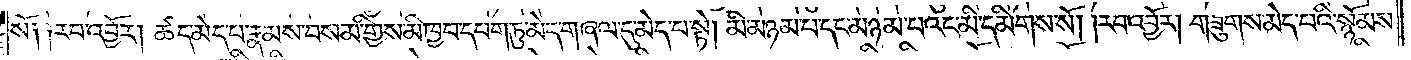སོ། །རབ་འབྱོར། ཚད་མེད་པ་རྣམས་བསམ་གྱིས་མི་ཁྱབ་དཔག་ཏུ་མེད་གཞལ་དུ་མེད་པ་སྟེ། མི་མཉམ་པ་དང་མཉམ་པའང་མི་དམིགས་སོ། །རབ་འབྱོར། གཟུགས་མེད་པའི་སྙོམས་
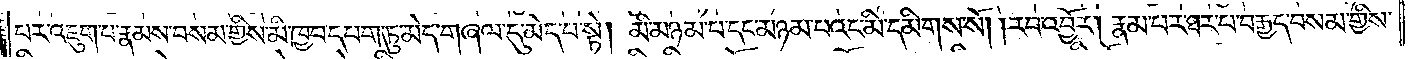པར་འཇུག་པ་རྣམས་བསམ་གྱིས་མི་ཁྱབ་དཔག་ཏུ་མེད་གཞལ་དུ་མེད་པ་སྟེ། མི་མཉམ་པ་དང་མཉམ་པའང་མི་དམིགས་སོ། །རབ་འབྱོར། རྣམ་པར་ཐར་པ་བརྒྱད་བསམ་གྱིས་
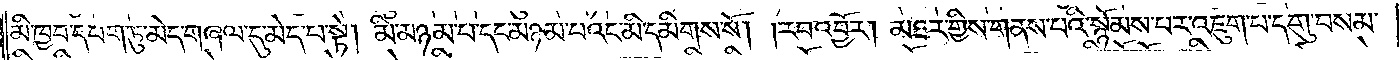མི་ཁྱབ་དཔག་ཏུ་མེད་གཞལ་དུ་མེད་པ་སྟེ། མི་མཉམ་པ་དང་མཉམ་པའང་མི་དམིགས་སོ། །རབ་འབྱོར། མཐར་གྱིས་གནས་པའི་སྙོམས་པར་འཇུག་པ་དགུ་བསམ་
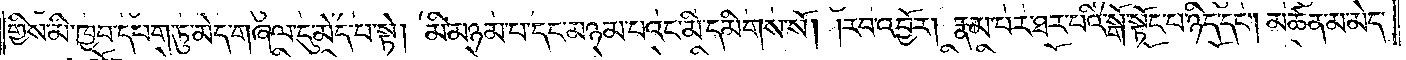གྱིས་མི་ཁྱབ་དཔག་ཏུ་མེད་གཞལ་དུ་མེད་པ་སྟེ། མི་མཉམ་པ་དང་མཉམ་པའང་མི་དམིགས་སོ། །རབ་འབྱོར། རྣམ་པར་ཐར་པའི་སྒོ་སྟོང་པ་ཉིད་དང༌། མཚན་མ་མེད་
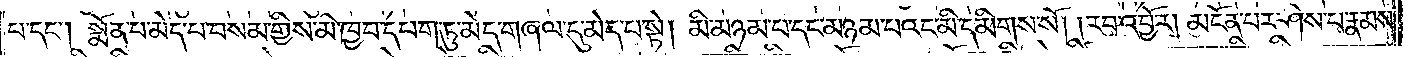པ་དང༌། སྨོན་པ་མེད་པ་བསམ་གྱིས་མི་ཁྱབ་དཔག་ཏུ་མེད་གཞལ་དུ་མེད་པ་སྟེ། མི་མཉམ་པ་དང་མཉམ་པའང་མི་དམིགས་སོ། །རབ་འབྱོར། མངོན་པར་ཤེས་པ་རྣམས་
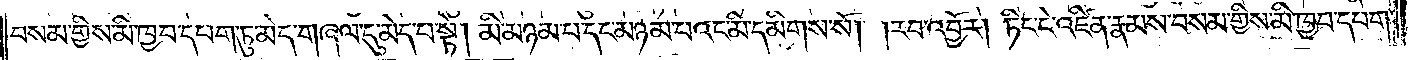བསམ་གྱིས་མི་ཁྱབ་དཔག་ཏུ་མེད་གཞལ་དུ་མེད་པ་སྟེ། མི་མཉམ་པ་དང་མཉམ་པའང་མི་དམིགས་སོ། །རབ་འབྱོར། ཏིང་ངེ་འཛིན་རྣམས་བསམ་གྱིས་མི་ཁྱབ་དཔག་
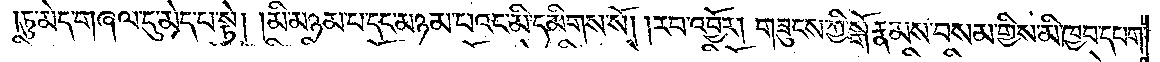ཏུ་མེད་གཞལ་དུ་མེད་པ་སྟེ། མི་མཉམ་པ་དང་མཉམ་པའང་མི་དམིགས་སོ། རབ་འབྱོར། གཟུངས་ཀྱི་སྒོ་རྣམས་བསམ་གྱིས་མི་ཁྱབ་དཔག་
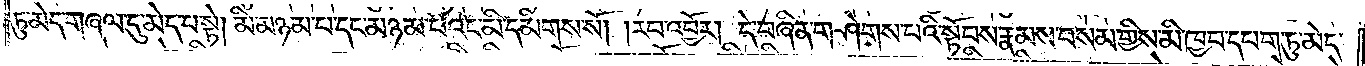ཏུ་མེད་གཞལ་དུ་མེད་པ་སྟེ། མི་མཉམ་པ་དང་མཉམ་པའང་མི་དམིགས་སོ། །རབ་འབྱོར། དེ་བཞིན་གཤེགས་པའི་སྟོབས་རྣམས་བསམ་གྱིས་མི་ཁྱབ་དཔག་ཏུ་མེད་
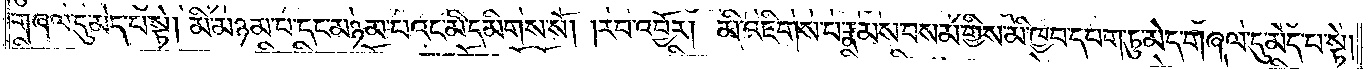གཞལ་དུ་མེད་པ་སྟེ། མི་མཉམ་པ་དང་མཉམ་པའང་མི་དམིགས་སོ། །རབ་འབྱོར། མི་འཇིགས་པ་རྣམས་བསམ་གྱིས་མི་ཁྱབ་དཔག་ཏུ་མེད་གཞལ་དུ་མེད་པ་སྟེ།
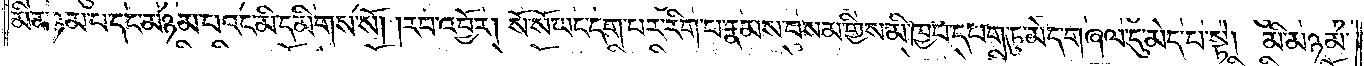མི་མཉམ་པ་དང་མཉམ་པའང་མི་དམིགས་སོ། །རབ་འབྱོར། སོ་སོ་ཡང་དག་པར་རིག་པ་རྣམས་བསམ་གྱིས་མི་ཁྱབ་དཔག་ཏུ་མེད་གཞལ་དུ་མེད་པ་སྟེ། མི་མཉམ་
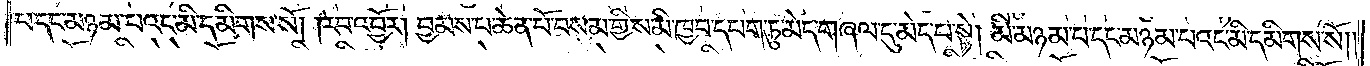པ་དང་མཉམ་པའང་མི་དམིགས་སོ། །རབ་འབྱོར། བྱམས་པ་ཆེན་པོ་བསམ་གྱིས་མི་ཁྱབ་དཔག་ཏུ་མེད་གཞལ་དུ་མེད་པ་སྟེ། མི་མཉམ་པ་དང་མཉམ་པའང་མི་དམིགས་སོ། །
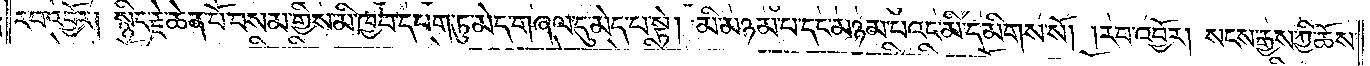རབ་འབྱོར། སྙིང་རྗེ་ཆེན་པོ་བསམ་གྱིས་མི་ཁྱབ་དཔག་ཏུ་མེད་གཞལ་དུ་མེད་པ་སྟེ། མི་མཉམ་པ་དང་མཉམ་པའང་མི་དམིགས་སོ། །རབ་འབྱོར། སངས་རྒྱས་ཀྱི་ཆོས་
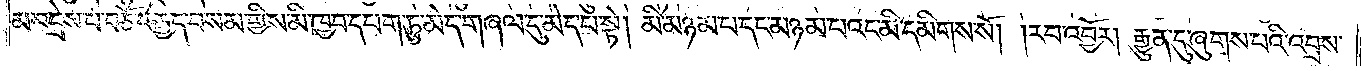མ་འདྲེས་པ་བཅོ་བརྒྱད་བསམ་གྱིས་མི་ཁྱབ་དཔག་ཏུ་མེད་གཞལ་དུ་མེད་པ་སྟེ། མི་མཉམ་པ་དང་མཉམ་པའང་མི་དམིགས་སོ། །རབ་འབྱོར། རྒྱུན་དུ་ཞུགས་པའི་འབྲས་
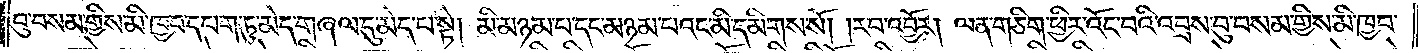བུ་བསམ་གྱིས་མི་ཁྱབ་དཔག་ཏུ་མེད་གཞལ་དུ་མེད་པ་སྟེ། མི་མཉམ་པ་དང་མཉམ་པའང་མི་དམིགས་སོ། །རབ་འབྱོར། ལན་གཅིག་ཕྱིར་འོང་བའི་འབྲས་བུ་བསམ་གྱིས་མི་ཁྱབ་
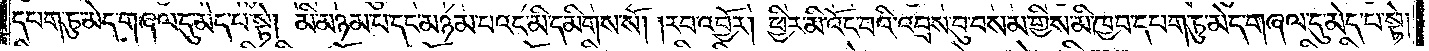དཔག་ཏུ་མེད་གཞལ་དུ་མེད་པ་སྟེ། མི་མཉམ་པ་དང་མཉམ་པའང་མི་དམིགས་སོ། །རབ་འབྱོར། ཕྱིར་མི་འོང་བའི་འབྲས་བུ་བསམ་གྱིས་མི་ཁྱབ་དཔག་ཏུ་མེད་གཞལ་དུ་མེད་པ་སྟེ།
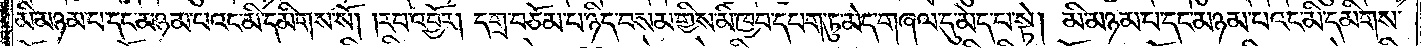མི་མཉམ་པ་དང་མཉམ་པའང་མི་དམིགས་སོ། །རབ་འབྱོར། དགྲ་བཅོམ་པ་ཉིད་བསམ་གྱིས་མི་ཁྱབ་དཔག་ཏུ་མེད་གཞལ་དུ་མེད་པ་སྟེ། མི་མཉམ་པ་དང་མཉམ་པའང་མི་དམིགས་
